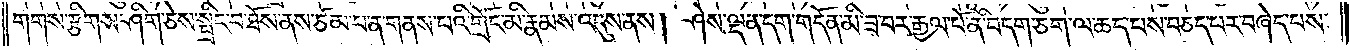གགས་རྩིགས་ཤིག་ཅེས་སྤྲིང་བ་ཐོས་ནས་ཙམ་པ་ན་གནས་པའི་གྲོང་མི་རྣམས་འདུས་ནས། ཤེས་ལྡན་དག་གདོན་མི་ཟ་བར་རྒྱལ་པོ་ནི་བདག་ཅག་ལ་ཆད་པས་བཅད་པར་བཞེད་པས་
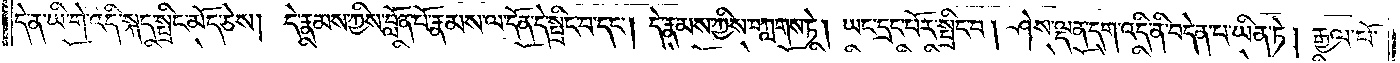དེ་ན་ཡི་གེ་འདི་སྐད་སྤྲིང་མོད་ཅེས། དེ་རྣམས་ཀྱིས་བློན་པོ་རྣམས་ལ་དོན་དེ་སྤྲིང་བ་དང༌། དེ་རྣམས་ཀྱིས་བཀླགས་ཏེ། ཡང་དྲང་པོར་སྤྲིང་བ། ཤེས་ལྡན་དག་འདི་ནི་བདེན་པ་ཡིན་ཏེ། རྒྱལ་པོ་
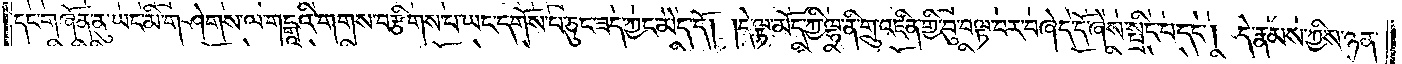དང་གཞོན་ནུ་ཡང་མི་གཤེགས་ལ་གངྒཱའི་གགས་བརྩིགས་པ་ཡང་དགོས་པ་ཅུང་ཟད་ཀྱང་མེད་དོ། །དེ་ལྟ་མོད་ཀྱི་ལྷ་ནི་གྲུ་འཛིན་གྱི་བུ་བལྟ་བར་བཞེད་དོ་ཞེས་སྤྲིང་པ་དང༌། དེ་རྣམས་ཀྱིས་ཉན་
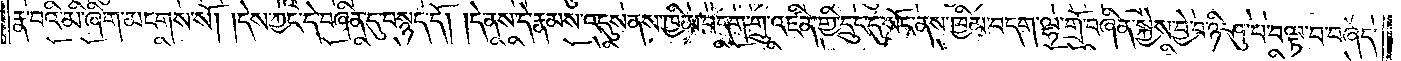རྣ་བའི་མི་ཞིག་མངགས་སོ། །དེས་ཀྱང་དེ་བཞིན་དུ་བསྙད་དོ། །དེ་ནས་དེ་རྣམས་འདུས་ནས་ཁྱིམ་བདག་གྲུ་འཛིན་གྱི་དྲུང་དུ་སོང་ནས་ཁྱིམ་བདག་ལྷ་གྲོ་བཞིན་སྐྱེས་བྱེ་བ་ཉི་ཤུ་པ་བལྟ་བ་བཞེད་
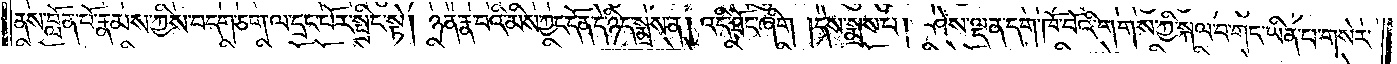ནས་བློན་པོ་རྣམས་ཀྱིས་བདག་ཅག་ལ་དྲང་པོར་སྤྲིང་སྟེ། ཉན་རྣ་བའི་མིས་ཀྱང་དོན་དེ་ཉིད་སྨྲས་ན། འདི་ཐོང་ཞིག །དེས་སྨྲས་པ། ཤེས་ལྡན་དག་ཁོ་བོའི་གགས་ཀྱི་སྐལ་བ་གང་ཡིན་པ་གསེར་
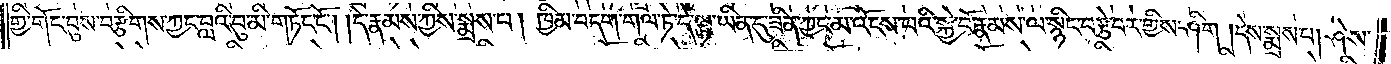གྱི་གོང་བུས་བརྩིགས་ཀྱང་བླའི་བུ་མི་གཏོང་ངོ༌། །དེ་རྣམས་ཀྱིས་སྨྲས་པ། ཁྱིམ་བདག་གལ་ཏེ་དེ་ལྟ་ཡིན་དུ་ཟིན་ཀྱང་མ་འོངས་པའི་སྐྱེ་བོ་རྣམས་ལ་སྙིང་བརྩེ་བར་གྱིས་ཤིག །དེས་སྨྲས་པ། ཤེས་
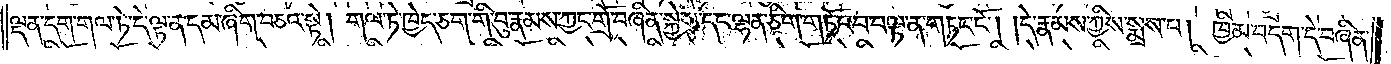ལྡན་དག་གལ་ཏེ་དེ་ལྟ་ན་དམ་ཞིག་བཅའ་སྟེ། གལ་ཏེ་ཁྱེད་ཅག་གི་བུ་རྣམས་ཀྱང་གྲོ་བཞིན་སྐྱེས་དང་ལྷན་ཅིག་གཏོང་བ་བལྟ་ན་གཏང་ངོ༌། །དེ་རྣམས་ཀྱིས་སྨྲས་པ། ཁྱིམ་བདག་དེ་བཞིན་
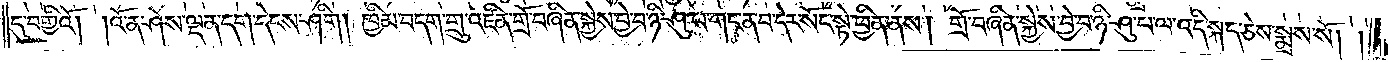དུ་བགྱིའོ། །འོ་ན་ཤེས་ལྡན་དག་དེངས་ཤིག། ཁྱིམ་བདག་གྲུ་འཛིན་གྲོ་བཞིན་སྐྱེས་བྱེ་བ་ཉི་ཤུ་བ་གང་ན་བ་དེར་སོང་སྟེ་ཕྱིན་ནས། གྲོ་བཞིན་སྐྱེས་བྱེ་བ་ཉི་ཤུ་པ་ལ་འདི་སྐད་ཅེས་སྨྲས་སོ། །
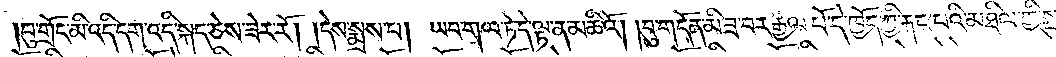བུ་གྲོང་མི་འདི་དག་འདི་སྐད་ཅེས་ཟེར་རོ། །དེས་སྨྲས་པ། ཡབ་གལ་ཏེ་དེ་ལྟ་ན་མཆིའོ། །བུ་གདོན་མི་ཟ་བར་རྒྱལ་པོ་དེ་ཁྱོད་ཀྱི་རྐང་པའི་མཐིལ་གྱི་སྤུ་
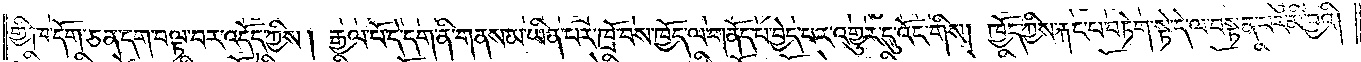གྱི་ཁ་དོག་ཅན་དག་བལྟ་བར་འདོད་ཀྱིས། རྒྱལ་པོ་དེ་དག་ནི་གནས་མ་ཡིན་པར་ཁྲོ་བས་ཁྱོད་ལ་གནོད་པ་བྱེད་པར་འགྱུར་དུ་འོང་གིས། ཁྱོད་ཀྱིས་རྐང་པ་བཏེག་སྟེ་དེ་ལ་བསྟན་པར་མི་བྱའི།
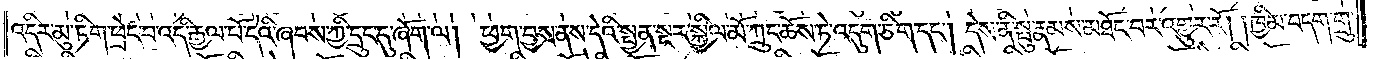འདིར་མུ་ཏིག་ཕྲེང་བ་འདི་རྒྱལ་པོ་དེའི་ཞབས་ཀྱི་དྲུང་དུ་ཞོག་ལ། ཕྱག་བྱས་ནས་དེའི་སྤྱན་སྔར་སྐྱིལ་མོ་ཀྲུང་ཆོས་ཏེ་འདུག་ཅིག་དང༌། དེས་ནི་སྤུ་རྣམས་མཐོང་བར་འགྱུར་རོ། །ཁྱིམ་བདག་གྲུ་
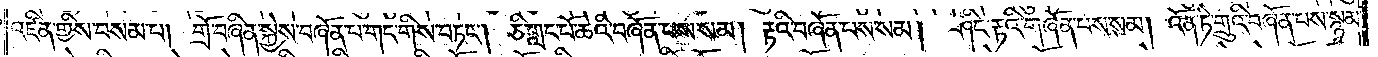འཛིན་གྱིས་བསམ་པ། གྲོ་བཞིན་སྐྱེས་བཞོན་པ་གང་གིས་བཏང༌། ཅི་གླང་པོ་ཆེའི་བཞོན་པས་སམ། རྟའི་བཞོན་པས་སམ། ཤིང་རྟའི་གཞོན་པས་སམ། འོན་ཏེ་གྲུའི་བཞོན་པས་སྙམ་
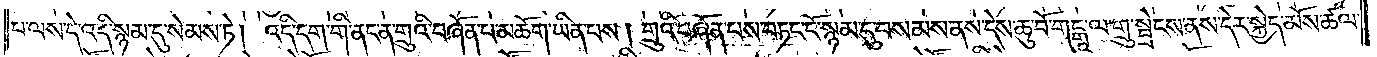པ་ལས་དེ་འདི་སྙམ་དུ་སེམས་ཏེ། འདི་དག་གི་ནང་ན་གྲུའི་བཞོན་པ་མཆོག་ཡིན་པས། གྲུའི་བཞོན་པས་བཏང་ངོ་སྙམ་དུ་བསམས་ནས་དེས་ཆུ་བོ་གངྒཱ་ལ་གྲུ་སྦྲེངས་ནས་དེར་སྐྱེད་མོས་ཚལ་
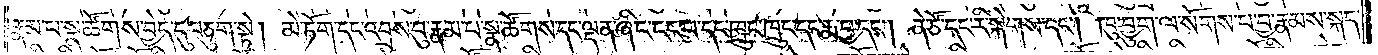རྣམ་པ་སྣ་ཚོགས་བྱེད་དུ་བཅུག་སྟེ། མེ་ཏོག་དང་འབྲས་བུ་རྣམ་པ་སྣ་ཚོགས་དང་ལྡན་ཞིང་ངང་པ་དང་ཁྲུང་ཁྲུང་དང་རྨ་བྱ་དང༌། ནེ་ཙོ་དང་རི་སྐེགས་དང༌། ཁུ་བྱུག་ལ་སོགས་པ་བྱ་རྣམས་སྐད་
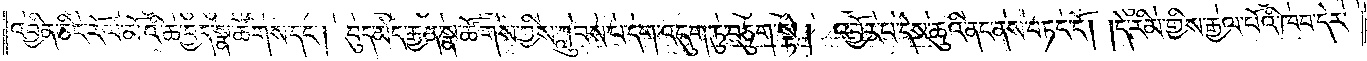འབྱིན་ཅིང་རོལ་མོའི་ཆ་བྱད་སྣ་ཚོགས་དང༌། བུད་མེད་རྒྱན་སྣ་ཚོགས་ཀྱིས་ཀླུབས་པ་དག་འདུག་ཏུ་བཅུག་སྟེ། འབྱོར་པ་དེས་ཆུའི་ནང་ནས་བཏང་ངོ༌། །དེ་རིམ་གྱིས་རྒྱལ་པོའི་ཁབ་དེར་
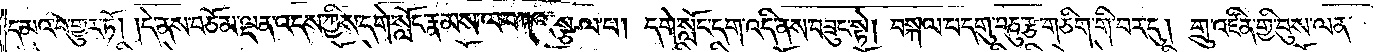དམའ་བ་གྱུར་ཏོ། །དེ་ནས་བཅོམ་ལྡན་འདས་ཀྱིས་དགེ་སློང་རྣམས་ལ་བཀའ་སྩལ་པ། དགེ་སློང་དག་འདི་ནས་བཟུང་སྟེ། བསྐལ་པ་དགུ་བཅུ་རྩ་གཅིག་གི་བར་དུ། གྲུ་འཛིན་གྱི་བུས་ལན་
